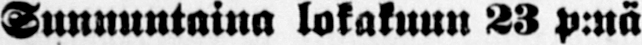Sunnuntaina lokakuun 22 p:nä
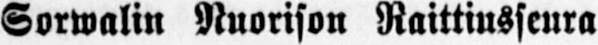Sorwalin Nuorison Raittiusseura
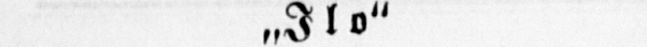„ Ilo"
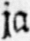ja
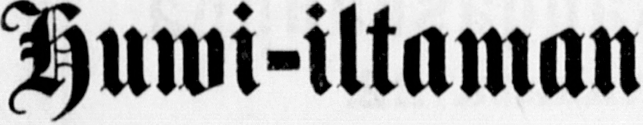Huwi-illaman
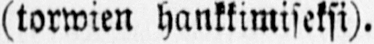(torwien hankkimiseksi).
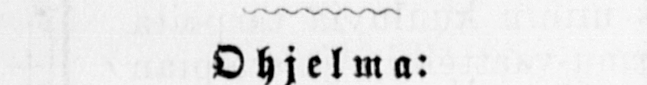Ohjelma:
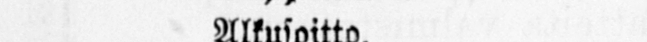Alkusoitto.
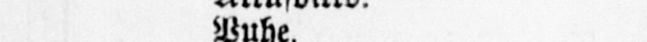Puhe
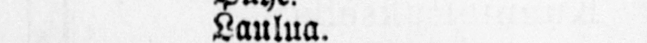Laulua
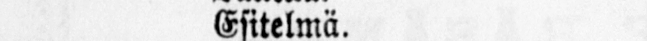Esitelmä.
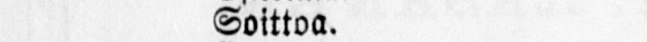Soittoa.
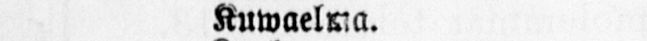Kuwaelma.
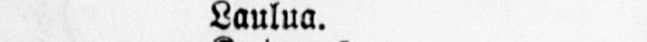Laulua.
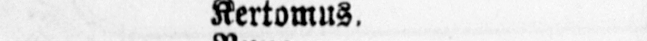Kertomus.
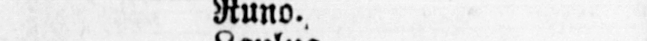Runo.
